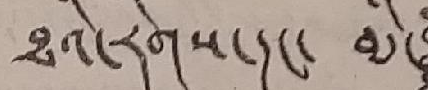ཐའི་རིགས་དང་ མི་
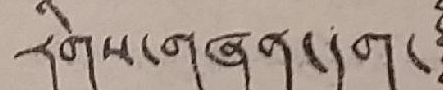རིགས་གཞན་དག་
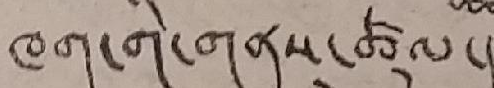ཁག་གི་གནས་ཚུལ་།
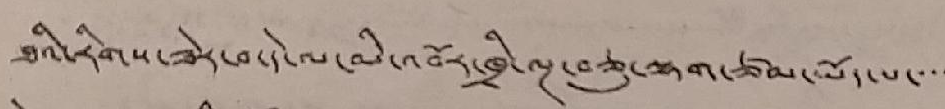ཐའི་རིགས་ཟེར་བ་དེ་ལ་མི་འབོར་ཁྲི་ལྔ་བཅུ་ལྷག་ཙམ་ཡོད་པ་་་་
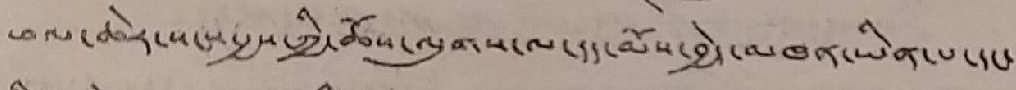ཕལ་ཆེར་སང་རྒྱས་ཀྱི་ཆོས་ལུགས་ལ་དད་མོས་བྱེད་མཁན་ཡིན་པ་དང་
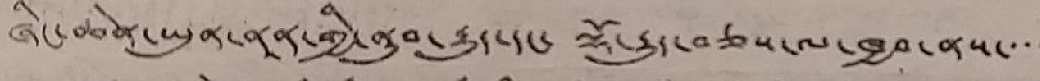ཞིང་ཆེན་ཡུན་ནཱན་གྱི་ནུབ་རྒྱུད་དང་ ལྷོ་རྒྱུད་བཅས་ལ་ཁྱབ་ནས་་་་
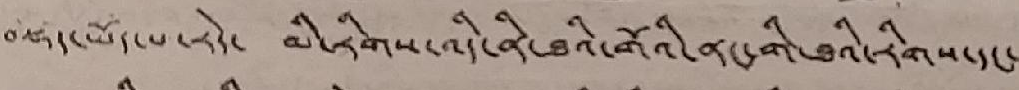བསྡད་ཡོད་པ་རེད་ མི་རིགས་འདི་ནི་ཐའི་གོའི་ནང་གི་ཐའི་རིགས་དང་
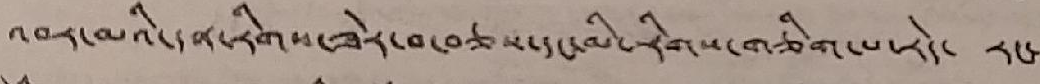འབར་བའི་དན་རིགས་ཟེར་བ་བཅས་དང་མི་རིགས་གཅིག་པ་རེད་ རང་
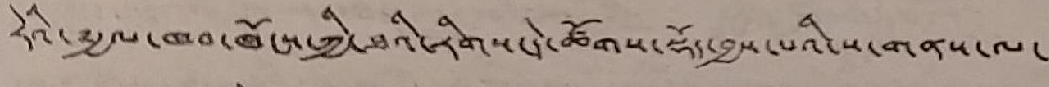རེའི་༸རྒྱལ་ཁབ་ཁོངས་ཀྱི་ཐའི་རིགས་དེ་ཚོགས་སྡོད་བྱས་པའི་ས་གནས་ལ་
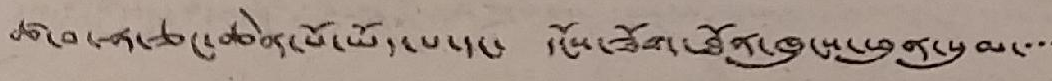ཚ་བ་ཧ་ཅང་ཆེན་པོ་ཡོད་པ་དང་ དངོས་ཟོག་ཐོན་ཁུངས་ཕུན་སུམ་་་་
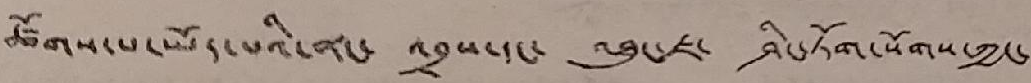ཚོགས་པ་ཡོད་པའི་ནང་ འབྲས་དང་ འཐུང་ཇ་ ཤིང་ཏོག་སོགས་ཀྱང་
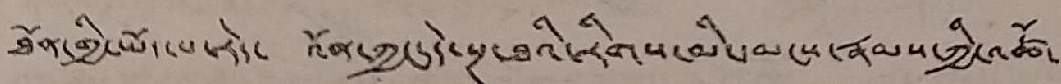ཐོན་གྱི་ཡོད་པ་རེད་ འོན་ཀྱང་དེ་སྔ་ཐའི་རིགས་མི་དམངས་རྣམས་ཀྱི་འཚོ་
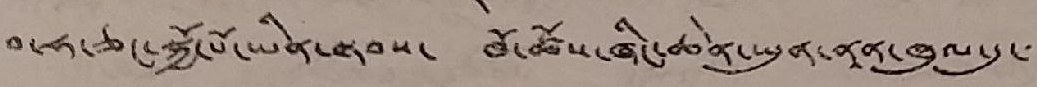བ་ཧ་ཅང་སྐྱོ་པོ་ཡིན་སྟབས་ ཁོ་ཚོས་ཞིང་ཆེན་ཡུན་ནཱན་ཁུལ་དུ་་་
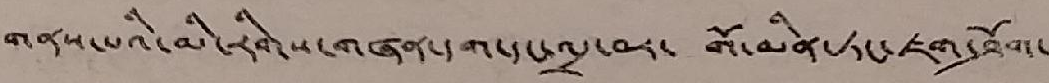གནས་པའི་མི་རིགས་གཞན་དག་དང་འདྲ་བར་ གོ་མིན་ཏང་ཇག་ཤོག་
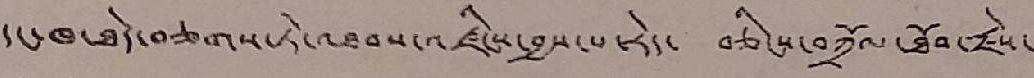དང་ཁ་ཐེད་བཅགས་ཏེ་འཐབས་འཛིངས་བྱས་པ་རེད་ བཅིངས་བཀྲོལ་ཐོབ་རྗེས་
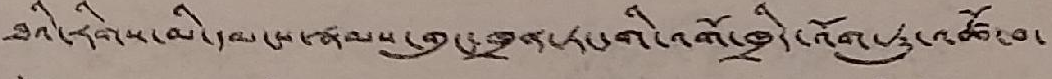ཐའི་རིགས་མི་དམངས་རྣམས་གུང་ཁྲན་ཏང་གི་འགོ་ཁྲིད་འོག་ཏུ་འཚོ་བ་
